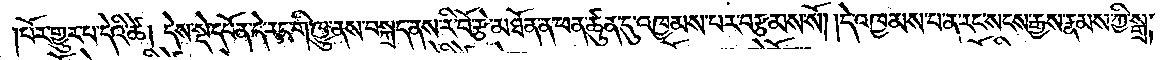པོར་གྱུར་པ་དེའི་ཚེ། དེས་སྡེ་དཔོན་དེ་རང་གི་ཁྱུ་ནས་བསྐྲད་ནས་རི་བོ་རྩེ་མཐོན་ན་ཕན་ཚུན་དུ་འཁྱམས་པར་བརྩམས་སོ། །དེ་འཁྱམས་པ་ན་རང་སངས་རྒྱས་རྣམས་ཀྱི་སྒྲ་
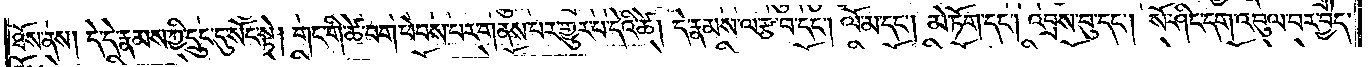ཐོས་ནས། དེ་དེ་རྣམས་ཀྱི་དྲུང་དུ་སོང་སྟེ། གང་གི་ཚེ་བག་ཕེབས་པར་གནས་པར་གྱུར་པ་དེའི་ཚེ། དེ་རྣམས་ལ་རྩ་བ་དང༌། ལོ་མ་དང༌། མེ་ཏོག་དང༌། འབྲས་བུ་དང༌། སོ་ཤིང་དག་འབུལ་བར་བྱེད་
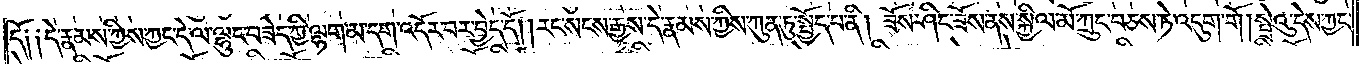དོ༑ ༑དེ་རྣམས་ཀྱིས་ཀྱང་དེ་ལ་ལྷུང་བཟེད་ཀྱི་ལྷག་མ་དག་འདོར་བར་བྱེད་དོ། །རང་སངས་རྒྱས་དེ་རྣམས་ཀྱིས་ཀུན་ཏུ་སྤྱོད་པ་ནི། ཟོས་ཤིང་ཟོས་ནས་སྐྱིལ་མོ་ཀྲུང་བཅས་ཏེ་འདུག་གོ། སྤྲེའུ་དེས་ཀྱང་
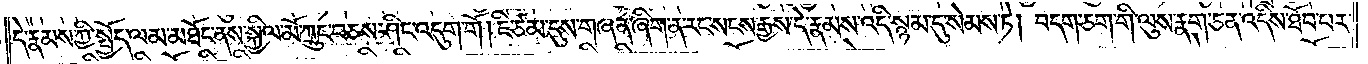དེ་རྣམས་ཀྱི་སྤྱོད་ལམ་མཐོང་ནས་སྐྱིལ་མོ་ཀྲུང་བཅས་ཤིང་འདུག་གོ། ཇི་ཙམ་དུས་གཞན་ཞིག་ན་རང་སངས་རྒྱས་དེ་རྣམས་འདི་སྙམ་དུ་སེམས་ཏེ། བདག་ཅག་གི་ལུས་རྣག་ཅན་འདིས་ཐོབ་པར་
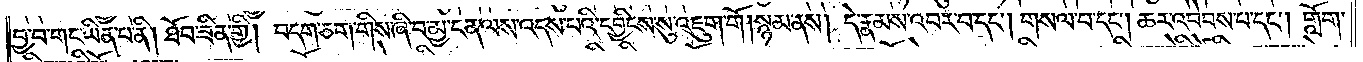བྱ་བ་གང་ཡིན་པ་ནི། ཐོབ་ཟིན་གྱི། བདག་ཅག་གིས་ཞི་བ་མྱ་ངན་ལས་འདས་པའི་དབྱིངས་སུ་ཡོངས་འཇུག་གོ། སྙམ་ནས། དེ་རྣམས་འབར་བ་དང༌། གསལ་བ་དང༌། ཆར་འབེབས་པ་དང༌། གློག་
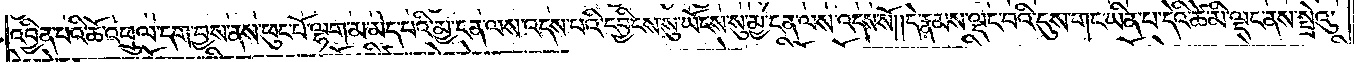འབྱིན་པའི་ཆོ་འཕྲུལ་དག་བྱས་ནས་ཕུང་པོ་ལྷག་མ་མེད་པའི་མྱ་ངན་ལས་འདས་པའི་དབྱིངས་སུ་ཡོངས་སུ་མྱ་ངན་ལས་འདས་སོ། །དེ་རྣམས་ལྡང་བའི་དུས་གང་ཡིན་པ་དེའི་ཚེ་མི་ལྡང་ནས་སྤྲེའུ་
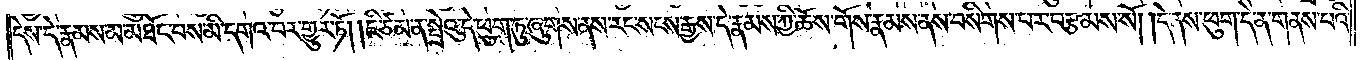དེས་དེ་རྣམས་མ་མཐོང་བས་མི་དགའ་བར་གྱུར་ཏོ། །ཇི་ཙམ་ན་སྤྲེའུ་དེ་ཕུག་ཏུ་ཞུགས་ནས་རང་སངས་རྒྱས་དེ་རྣམས་ཀྱི་ཆོས་གོས་རྣམས་ནས་བསིགས་པར་བརྩམས་སོ། །དེ་ནས་ཕུག་དེ་ན་གནས་པའི་
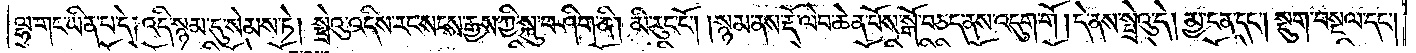ལྷ་གང་ཡིན་པ་དེ། འདི་སྙམ་དུ་སེམས་ཏེ། སྤྲེའུ་འདིས་རང་སངས་རྒྱས་ཀྱི་སྐུ་བཤིག་ནི། མི་རུང་ངོ༌། །སྙམ་ནས་རྡོ་ལེབ་ཆེན་པོས་སྒོ་བཅད་ནས་འདུག་གོ། །དེ་ནས་སྤྲེའུ་དེ། མྱ་ངན་དང༌། སྡུག་བསྔལ་དང༌།
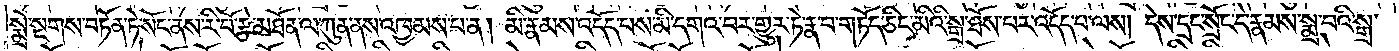སྨྲེ་སྔགས་བཏོན་ཏེ་སོང་ནས་རི་བོ་རྩེ་མཐོན་ལ་ཀུན་ནས་འཁྱམས་པ་ན། མི་རྣམས་འདོད་པས་མི་དགའ་བར་གྱུར་ཏེ་རྣ་བ་གཏོད་ཅིང་མིའི་སྒྲ་ཐོས་པར་འདོད་པ་ལས། དེས་དྲང་སྲོང་དེ་རྣམས་སྨྲ་བའི་སྒྲ་
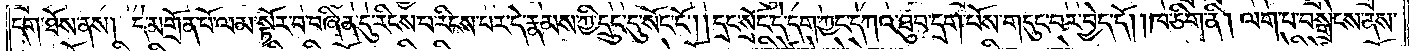དག་ཐོས་ནས། དེ་མགྲོན་པོ་ལམ་སྟོར་བ་བཞིན་དུ་རིངས་པ་རིངས་པར་དེ་རྣམས་ཀྱི་དྲུང་དུ་སོང་ངོ༌། །དྲང་སྲོང་དེ་དག་ཀྱང་དཀའ་ཐུབ་དྲག་པོས་གདུང་བར་བྱེད་དོ། །ཁ་ཅིག་ནི། ལག་པ་བསྒྲེངས་ནས་
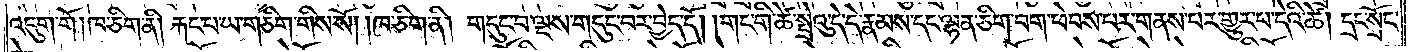འདུག་གོ། ཁ་ཅིག་ནི། རྐང་པ་ཡ་གཅིག་གིས་སོ། །ཁ་ཅིག་ནི། གདུང་བ་ལྔས་གདུང་བར་བྱེད་དོ། །གང་གི་ཚེ་སྤྲེའུ་དེ་དེ་རྣམས་དང་ལྷན་ཅིག་བག་ཕེབས་པར་གནས་པར་གྱུར་པ་དེའི་ཚེ། དྲང་སྲོང་
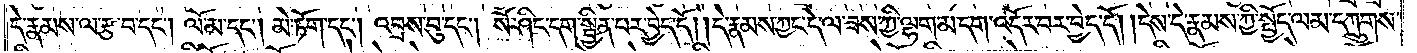དེ་རྣམས་ལ་རྩ་བ་དང༌། ལོ་མ་དང༌། མེ་ཏོག་དང༌། འབྲས་བུ་དང༌། སོ་ཤིང་དག་སྦྱིན་པར་བྱེད་དོ། །དེ་རྣམས་ཀྱང་དེ་ལ་ཟས་ཀྱི་ལྷག་མ་དག་འདོར་བར་བྱེད་དོ། །དེས་དེ་རྣམས་ཀྱི་སྤྱོད་ལམ་དཀྲུགས་
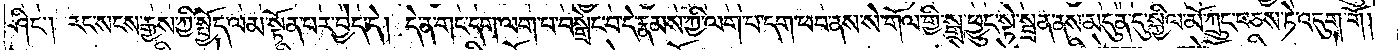ཤིང༌། རང་སངས་རྒྱས་ཀྱི་སྤྱོད་ལམ་སྟོན་པར་བྱེད་དེ། དེ་ན་གང་དག་ལག་པ་བསྒྲེང་བ་དེ་རྣམས་ཀྱི་ལག་པ་དག་ཕབ་ནས་སེ་གོལ་གྱི་སྒྲ་ཕྱུང་སྟེ་སྦྲན་ནས་མདུན་དུ་སྐྱིལ་མོ་ཀྲུང་བཅས་ཏེ་འདུག་གོ།
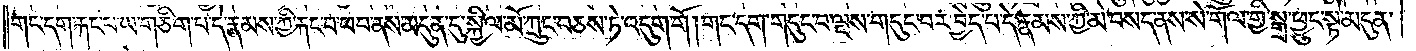གང་དག་རྐང་པ་ཡ་གཅིག་པ་དེ་རྣམས་ཀྱི་རྐང་བ་ཕབ་ནས་མདུན་དུ་སྐྱིལ་མོ་ཀྲུང་བཅས་ཏེ་འདུག་གོ། གང་དག་གདུང་བ་ལྔས་གདུང་བར་བྱེད་པ་དེ་རྣམས་ཀྱི་མེ་བསད་ནས་སེ་གོལ་གྱི་སྒྲ་ཕྱུང་སྟེ་མདུན་
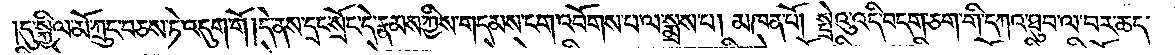དུ་སྐྱིལ་མོ་ཀྲུང་བཅས་ཏེ་འདུག་གོ །དེ་ནས་དྲང་སྲོང་དེ་རྣམས་ཀྱིས་གདམས་ངག་འབོགས་པ་ལ་སྨྲས་པ། མཁན་པོ། སྤྲེའུ་འདི་བདག་ཅག་གི་དཀའ་ཐུབ་ལ་བར་ཆད་
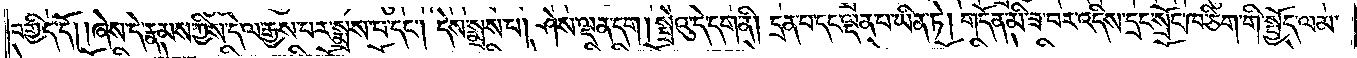བགྱིད་དོ། །ཞེས་དེ་རྣམས་ཀྱིས་དེ་ལ་རྒྱས་པར་སྨྲས་པ་དང༌། དེས་སྨྲས་པ། ཤེས་ལྡན་དག། སྤྲེའུ་དེ་དག་ནི། དྲན་པ་དང་ལྡན་པ་ཡིན་ཏེ། གདོན་མི་ཟ་བར་འདིས་དྲང་སྲོང་ཁ་ཅིག་གི་སྤྱོད་ལམ་
